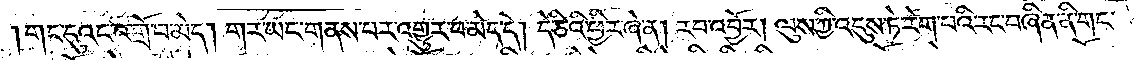གང་དུའང་འགྲོ་བ་མེད། གར་ཡང་གནས་པར་འགྱུར་བ་མེད་དེ། དེ་ཅིའི་ཕྱིར་ཞེ་ན། རབ་འབྱོར། ལུས་ཀྱི་འདུས་ཏེ་རེག་པའི་རང་བཞིན་ནི་གང་
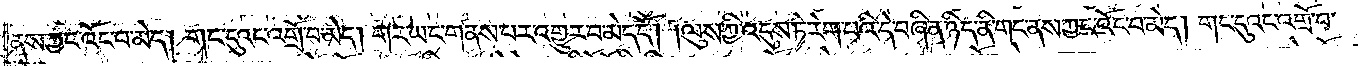ནས་ཀྱང་འོང་བ་མེད། གང་དུའང་འགྲོ་བ་མེད། གར་ཡང་གནས་པར་འགྱུར་བ་མེད་དོ། །ལུས་ཀྱི་འདུས་ཏེ་རེག་པའི་དེ་བཞིན་ཉིད་ནི་གང་ནས་ཀྱང་འོང་བ་མེད། གང་དུའང་འགྲོ་བ་
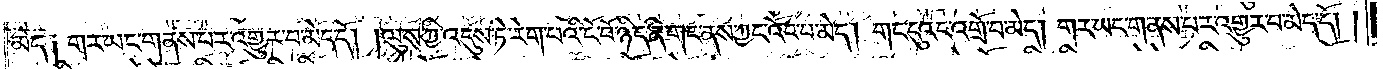མེད། གར་ཡང་གནས་པར་འགྱུར་བ་མེད་དོ། །ལུས་ཀྱི་འདུས་ཏེ་རེག་པའི་ངོ་བོ་ཉིད་ནི་གང་ནས་ཀྱང་འོང་བ་མེད། གང་དུའང་འགྲོ་བ་མེད། གར་ཡང་གནས་པར་འགྱུར་བ་མེད་དོ། །
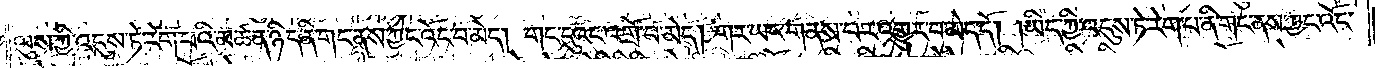ལུས་ཀྱི་འདུས་ཏེ་རེག་པའི་མཚན་ཉིད་ནི་གང་ནས་ཀྱང་འོང་བ་མེད། གང་དུའང་འགྲོ་བ་མེད། གར་ཡང་གནས་པར་འགྱུར་བ་མེད་དོ། །ཡིད་ཀྱི་འདུས་ཏེ་རེག་པ་ནི་གང་ནས་ཀྱང་འོང་
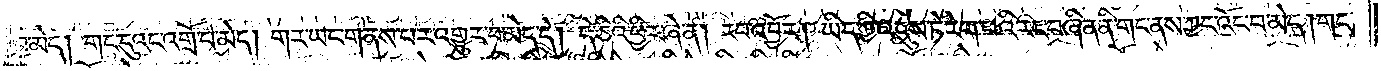བ་མེད། གང་དུའང་འགྲོ་བ་མེད། གར་ཡང་གནས་པར་འགྱུར་བ་མེད་དེ། དེ་ཅིའི་ཕྱིར་ཞེ་ན། རབ་འབྱོར། ཡིད་ཀྱི་འདུས་ཏེ་རེག་པའི་རང་བཞིན་ནི་གང་ནས་ཀྱང་འོང་བ་མེད། གང་
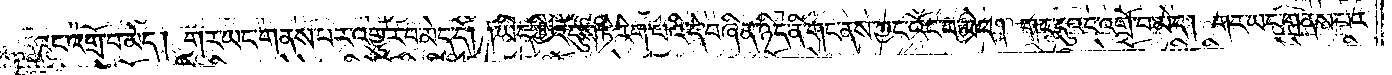དུའང་འགྲོ་བ་མེད། གར་ཡང་གནས་པར་འགྱུར་བ་མེད་དོ། །ཡིད་ཀྱི་འདུས་ཏེ་རེག་པའི་དེ་བཞིན་ཉིད་ནི་གང་ནས་ཀྱང་འོང་བ་མེད། གང་དུའང་འགྲོ་བ་མེད། གར་ཡང་གནས་པར་
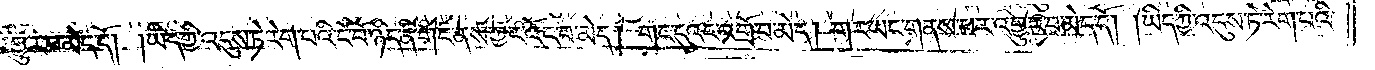འགྱུར་བ་མེད་དོ། །ཡིད་ཀྱི་འདུས་ཏེ་རེག་པའི་ངོ་བོ་ཉིད་ནི་གང་ནས་ཀྱང་འོང་བ་མེད། གང་དུའང་འགྲོ་བ་མེད། གར་ཡང་གནས་པར་འགྱུར་བ་མེད་དོ། །ཡིད་ཀྱི་འདུས་ཏེ་རེག་པའི་
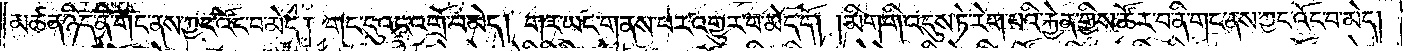མཚན་ཉིད་ནི་གང་ནས་ཀྱང་འོང་བ་མེད། གང་དུའང་འགྲོ་བ་མེད། གར་ཡང་གནས་པར་འགྱུར་བ་མེད་དོ། །མིག་གི་འདུས་ཏེ་རེག་པའི་རྐྱེན་གྱིས་ཚོར་བ་ནི་གང་ནས་ཀྱང་འོང་བ་མེད།
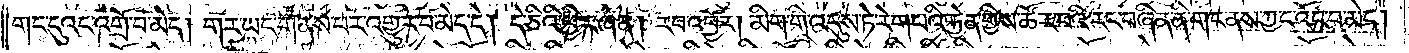གང་དུའང་འགྲོ་བ་མེད། གར་ཡང་གནས་པར་འགྱུར་བ་མེད་དེ། དེ་ཅིའི་ཕྱིར་ཞེ་ན། རབ་འབྱོར། མིག་གི་འདུས་ཏེ་རེག་པའི་རྐྱེན་གྱིས་ཚོར་བའི་རང་བཞིན་ནི་གང་ནས་ཀྱང་འོང་བ་མེད།
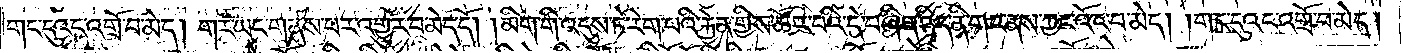གང་དུའང་འགྲོ་བ་མེད། གར་ཡང་གནས་པར་འགྱུར་བ་མེད་དོ། །མིག་གི་འདུས་ཏེ་རེག་པའི་རྐྱེན་གྱིས་ཚོར་བའི་དེ་བཞིན་ཉིད་ནི་གང་ནས་ཀྱང་འོང་བ་མེད། གང་དུའང་འགྲོ་བ་མེད།
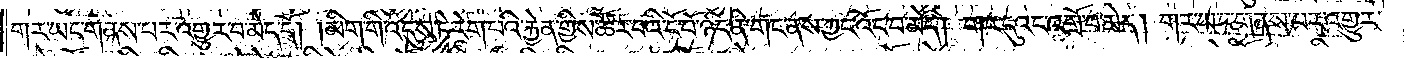གར་ཡང་གནས་པར་འགྱུར་བ་མེད་དོ། །མིག་གི་འདུས་ཏེ་རེག་པའི་རྐྱེན་གྱིས་ཚོར་བའི་ངོ་བོ་ཉིད་ནི་གང་ནས་ཀྱང་འོང་བ་མེད། གང་དུའང་འགྲོ་བ་མེད། གར་ཡང་གནས་པར་འགྱུར་
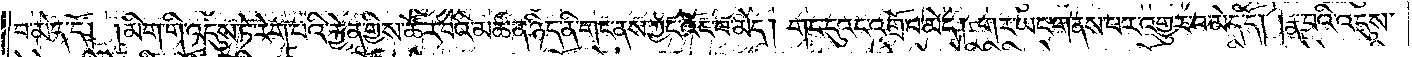བ་མེད་དོ། །མིག་གི་འདུས་ཏེ་རེག་པའི་རྐྱེན་གྱིས་ཚོར་བའི་མཚན་ཉིད་ནི་གང་ནས་ཀྱང་འོང་བ་མེད། གང་དུའང་འགྲོ་བ་མེད། གར་ཡང་གནས་པར་འགྱུར་བ་མེད་དོ། །རྣ་བའི་འདུས་
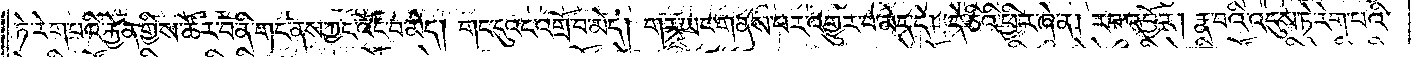ཏེ་རེག་པའི་རྐྱེན་གྱིས་ཚོར་བ་ནི་གང་ནས་ཀྱང་འོང་བ་མེད། གང་དུའང་འགྲོ་བ་མེད། གར་ཡང་གནས་པར་འགྱུར་བ་མེད་དེ། དེ་ཅིའི་ཕྱིར་ཞེ་ན། རབ་འབྱོར། རྣ་བའི་འདུས་ཏེ་རེག་པའི་
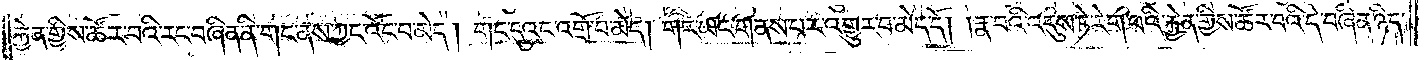རྐྱེན་གྱིས་ཚོར་བའི་རང་བཞིན་ནི་གང་ནས་ཀྱང་འོང་བ་མེད། གང་དུའང་འགྲོ་བ་མེད། གར་ཡང་གནས་པར་འགྱུར་བ་མེད་དོ། །རྣ་བའི་འདུས་ཏེ་རེག་པའི་རྐྱེན་གྱིས་ཚོར་བའི་དེ་བཞིན་ཉིད་
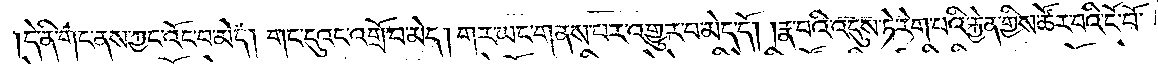དེ་ནི་གང་ནས་ཀྱང་འོང་བ་མེད། གང་དུའང་འགྲོ་བ་མེད། གར་ཡང་གནས་པར་འགྱུར་བ་མེད་དོ། །རྣ་བའི་འདུས་ཏེ་རེག་པའི་རྐྱེན་གྱིས་ཚོར་བའི་ངོ་བོ་
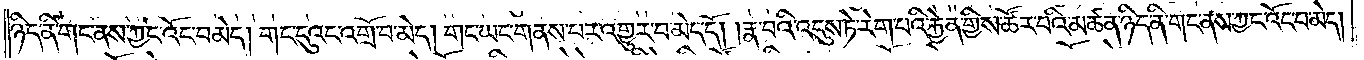ཉིད་ནི་གང་ནས་ཀྱང་འོང་བ་མེད། གང་དུའང་འགྲོ་བ་མེད། གང་ཡང་གནས་པར་འགྱུར་བ་མེད་དོ། །རྣ་བའི་འདུས་ཏེ་རེག་པའི་རྐྱེན་གྱིས་ཚོར་བའི་མཚན་ཉིད་ནི་གང་ནས་ཀྱང་འོང་བ་མེད།
